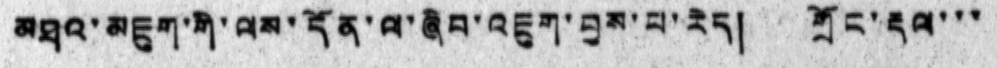མཐའ་མཇུག་གུ་ལས་དོན་ལ་ཞིབ་འཇུག་བྱས་པ་རེད། གྲོང་རྡལ་་་
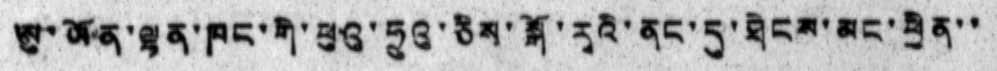ཨུ་ཡོན་ལྷན་ཁང་གི་ཕུའུ་ཧྲུའུ་ཅིས་སྒོ་རྭའི་ནང་དུ་ཐེངས་མང་ཕྱིན་་
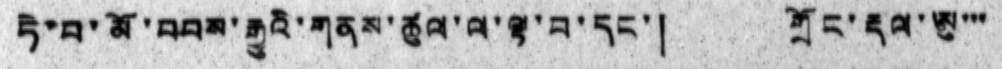ཏེ་བ་མོ་བབས་རྒྱུའི་གནས་ཚུལ་ལ་ལྟ་བ་དང་། གྲོང་རྡལ་ཨུ་་་
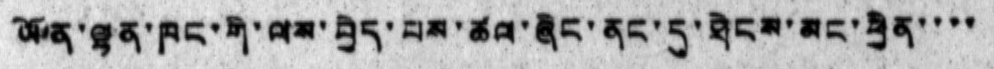ཡོན་ལྷན་ཁང་གི་ལས་བྱེད་པས་ཚལ་ཞིང་ནང་དུ་ཐེངས་མང་ཕྱིན་་་་
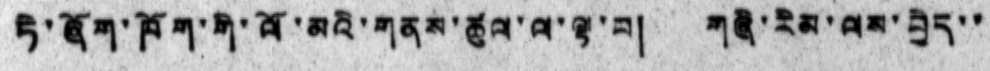ཏེ་ཞོག་ཁོག་གི་ལོ་མའི་གནས་ཚུལ་ལ་ལྟ་བ། གཞི་རིམ་ལས་བྱེད་་
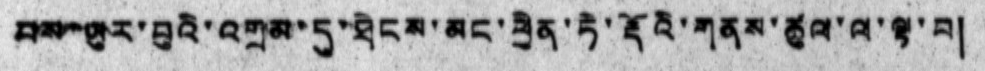བས་ཡུར་བུའི་འགྲམ་དུ་ཐེངས་མང་ཕྱིན་ཏེ་རྡོའི་གནས་ཚུལ་ལ་ལྟ་བ།
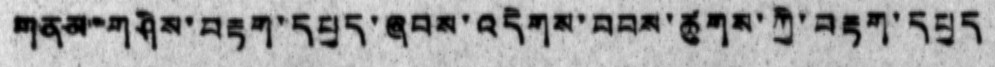གནམ་གཤིས་བརྟག་དཔྱད་ཞབས་འདེགས་བབས་ཚུགས་ཀྱི་བརྟག་དཔྱད
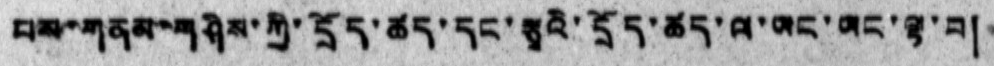པས་གནམ་གཤིས་ཀྱི་དྲོད་ཚད་དང་རྩྭའི་དྲོད་ཚད་ལ་ཡང་ཡང་ལྟ་བ།
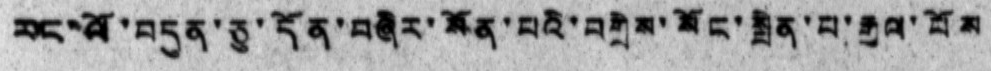རང་ལོ་བདུན་ཅུ་དོན་བཞིར་སོན་པའི་བགྲེས་སོང་སྤེན་པ་རྒྱལ་པོས
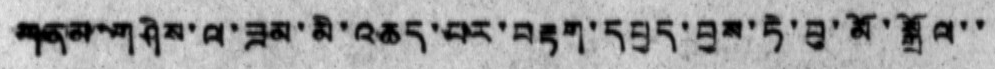གནམ་གཤིས་ལ་ཟམ་མི་འཆད་པར་བརྟག་དཔྱད་བྱས་ཏེ་བུ་མོ་སྒྲོལ་་
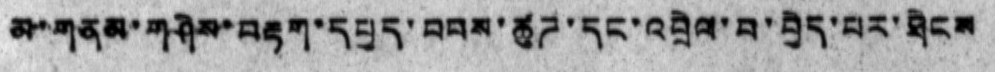མ་གནམ་གཤིས་བརྟག་དཔྱད་བབས་ཚུཌ་དང་འབྲེལ་བ་བྱེད་པར་ཐེངས
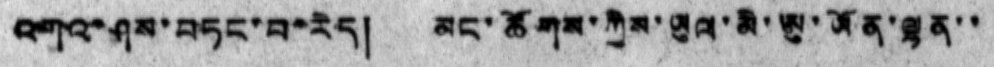འགའ་ཤས་བཏང་བ་རེད། མང་ཚོགས་ཀྱིས་ཡུལ་མི་ཨུ་ཡོན་ལྷན་་
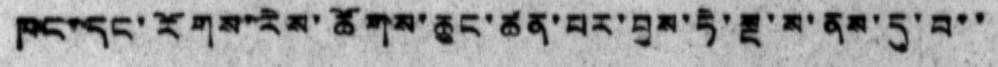ཁང་དང་རོགས་རེས་ཚོགས་ཆུང་ཚན་པར་བྱས་ཏེ་སྔ་ས་ནས་དུ་བ་་
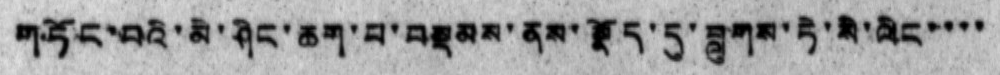གཏོང་བའི་མི་ཤིང་ཆག་པ་བསྡམས་ནས་སྣོད་དུ་བླུགས་ཏེ་སི་ལིང་་་་
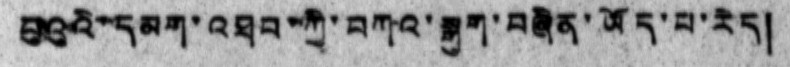པུའུའི་དམག་འཐབ་ཀྱི་བཀའ་སྒུག་བཞིན་ཡོད་པ་རེད།
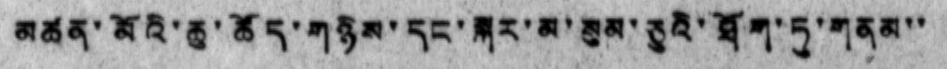མཚན་མོའི་ཆུ་ཚོད་གཉིས་དང་སྐར་མ་སུམ་ཅུའི་ཐོག་ཏུ་གནམ་་
